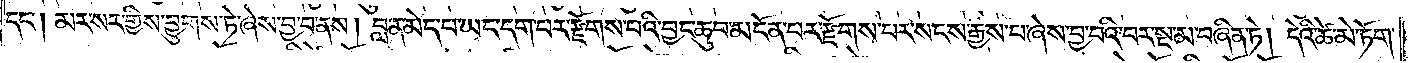དང༌། མར་སར་གྱིས་བྱུགས་ཏེ་ཞེས་བྱ་བ་ནས། བླ་ན་མེད་པ་ཡང་དག་པར་རྫོགས་པའི་བྱང་ཆུབ་མངོན་པར་རྫོགས་པར་སངས་རྒྱས་པ་ཞེས་བྱ་བའི་བར་སྔ་མ་བཞིན་ཏེ། དེའི་ཚེ་མེ་ཏོག་
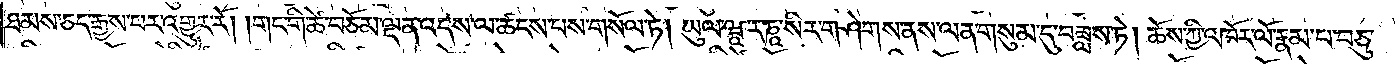ཐམས་ཅད་རྒྱས་པར་འགྱུར་རོ། །གང་གི་ཚེ་བཅོམ་ལྡན་འདས་ལ་ཚངས་པས་གསོལ་ཏེ། ཡུལ་ཝཱ་ར་ཎཱ་སིར་གཤེགས་ནས་ལན་གསུམ་དུ་བཟླས་ཏེ། ཆོས་ཀྱི་འཁོར་ལོ་རྣམ་པ་བཅུ་
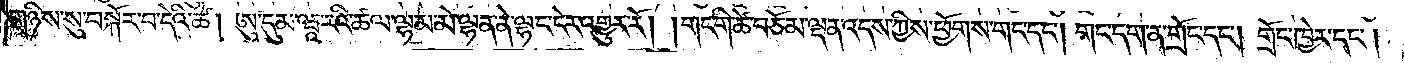གཉིས་སུ་བསྐོར་བ་དེའི་ཚེ། ཨུ་དུམ་ཝཱ་རའི་ཚལ་ལྷམ་མེ་ལྷན་ནེ་ལྷང་ངེར་འགྱུར་རོ། །གང་གི་ཚེ་བཅོམ་ལྡན་འདས་ཀྱིས་ཕྱོགས་གང་དང༌། གང་དག་ན་གྲོང་དང༌། གྲོང་ཁྱེར་དང༌།
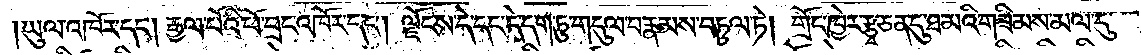ཡུལ་འཁོར་དང༌། རྒྱལ་པོའི་ཕོ་བྲང་འཁོར་དང༌། ལྗོངས་དེ་དང་དེ་དག་ཏུ་གདུལ་བ་རྣམས་བཏུལ་ཏེ། གྲོང་ཁྱེར་རྩྭ་ཅན་དུ་ཐ་མའི་གཟིམས་མལ་དུ་
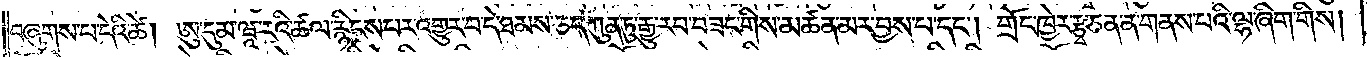བཞུགས་པ་དེའི་ཚེ། ཨུ་དུམ་ཝཱ་རའི་ཚལ་རྙིངས་པར་འགྱུར་བ་དེ་ཐམས་ཅད་ཀུན་ཏུ་རྒྱུ་རབ་བཟང་གིས་མཚན་མར་བྱས་པ་དང༌། གྲོང་ཁྱེར་རྩྭ་ཅན་ན་གནས་པའི་ལྷ་ཞིག་གིས།
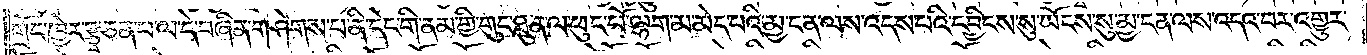གྲོང་ཁྱེར་རྩྭ་ཅན་པ་ལ་དེ་བཞིན་གཤེགས་པ་ནི་དེང་གི་ནམ་གྱི་གུང་ཐུན་ལ་ཕུང་པོ་ལྷག་མ་མེད་པའི་མྱ་ངན་ལས་འདས་པའི་དབྱིངས་སུ་ཡོངས་སུ་མྱ་ངན་ལས་འདའ་བར་འགྱུར་
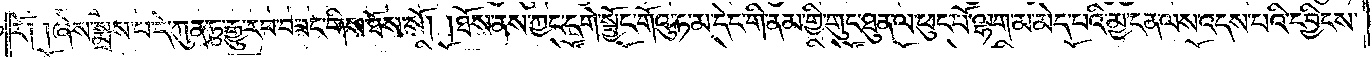རོ། །ཞེས་སྨྲས་པ་དེ་ཀུན་ཏུ་རྒྱུ་རབ་བཟང་གིས་ཐོས་སོ། །ཐོས་ནས་ཀྱང་དགེ་སྦྱོང་གོའུ་ཏ་མ་དེང་གི་ནམ་གྱི་གུང་ཐུན་ལ་ཕུང་པོ་ལྷག་མ་མེད་པའི་མྱ་ངན་ལས་འདས་པའི་དབྱིངས་
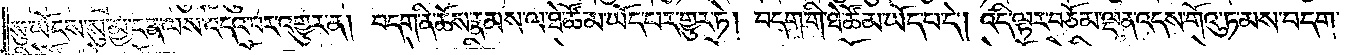སུ་ཡོངས་སུ་མྱ་ངན་ལས་འདའ་བར་འགྱུར་ན། བདག་ནི་ཆོས་རྣམས་ལ་ཐེ་ཚོམ་ཡོད་པར་གྱུར་ཏེ། བདག་གི་ཐེ་ཚོམ་ཡོད་པ་དེ། འདི་ལྟར་བཅོམ་ལྡན་འདས་གོའུ་ཏ་མས་བདག་
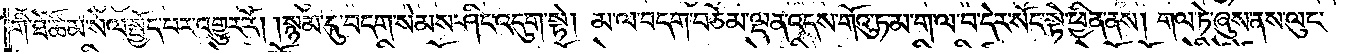གི་ཐེ་ཚོམ་སེལ་སྤྱོད་པར་འགྱུར་རོ། །སྙམ་དུ་བདག་སེམས་ཤིང་འདུག་སྟེ། མ་ལ་བདག་བཅོམ་ལྡན་འདས་གོའུ་ཏ་མ་ག་ལ་བ་དེར་སོང་སྟེ་ཕྱིན་ནས། གལ་ཏེ་ཞུས་ནས་ལུང་
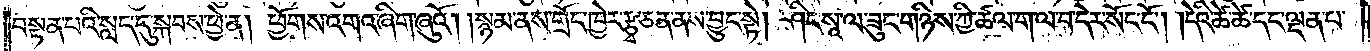བསྟན་པའི་སླད་དུ་སྐབས་ཕྱེ་ན། ཕྱོགས་འགའ་ཞིག་ཞུའོ། །སྙམ་ནས་གྲོང་ཁྱེར་རྩྭ་ཅན་ནས་བྱུང་སྟེ། ཤིང་སཱ་ལ་ཟུང་གཉིས་ཀྱི་ཚལ་ག་ལ་བ་དེར་སོང་ངོ༌། །དེའི་ཚེ་ཚེ་དང་ལྡན་པ་
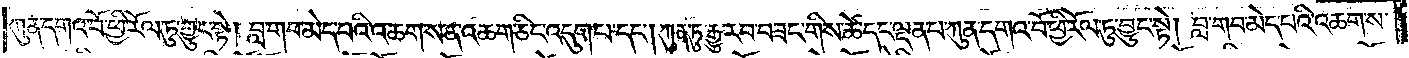ཀུན་དགའ་བོ་ཕྱི་རོལ་ཏུ་བྱུང་སྟེ། བླ་གབ་མེད་པའི་འཆག་ས་ན་འཆག་ཅིང་འདུག་པ་དང༌། ཀུན་ཏུ་རྒྱུ་རབ་བཟང་གིས་ཚེ་དང་ལྡན་པ་ཀུན་དགའ་བོ་ཕྱི་རོལ་ཏུ་བྱུང་སྟེ། བླ་གབ་མེད་པའི་འཆག་ས་
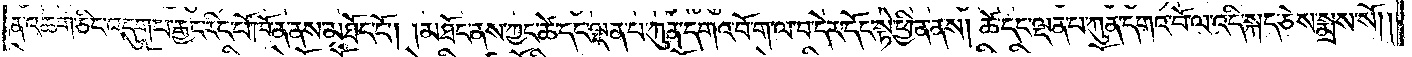ན་འཆག་ཅིང་འདུག་པ་རྒྱང་རིང་པོ་ཁོ་ན་ནས་མཐོང་ངོ༌། །མཐོང་ནས་ཀྱང་ཚེ་དང་ལྡན་པ་ཀུན་དགའ་བོ་ག་ལ་བ་དེར་དོང་སྟེ་ཕྱིན་ནས། ཚེ་དང་ལྡན་པ་ཀུན་དགའ་བོ་ལ་འདི་སྐད་ཅེས་སྨྲས་སོ༎
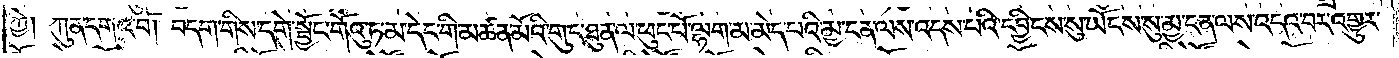ཀྱེ། ཀུན་དགའ་བོ། བདག་གིས་དགེ་སྦྱོང་གོའུ་ཏ་མ་དེང་གི་མཚན་མོའི་གུང་ཐུན་ལ་ཕུང་པོ་ལྷག་མ་མེད་པའི་མྱ་ངན་ལས་འདས་པའི་དབྱིངས་སུ་ཡོངས་སུ་མྱ་ངན་ལས་འདའ་བར་འགྱུར་
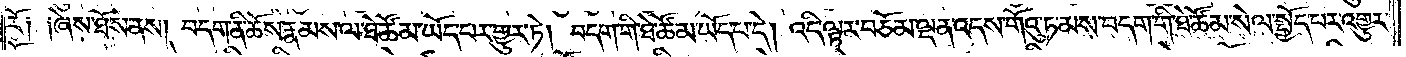རོ༑ ༑ཞེས་ཐོས་ནས། བདག་ནི་ཆོས་རྣམས་ལ་ཐེ་ཚོམ་ཡོད་པར་གྱུར་ཏེ། བདག་གི་ཐེ་ཚོམ་ཡོད་པ་དེ། འདི་ལྟར་བཅོམ་ལྡན་འདས་གོའུ་ཏ་མས་བདག་གི་ཐེ་ཚོམ་སེལ་སྤྱོད་པར་འགྱུར་
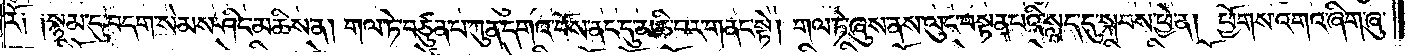རོ༑ ༑སྙམ་དུ་བདག་སེམས་ཤིང་མཆིས་ན། གལ་ཏེ་བཙུན་པ་ཀུན་དགའ་བོས་ནང་དུ་མཆི་བར་གནང་སྟེ། གལ་ཏེ་ཞུས་ནས་ལུང་བསྟན་པའི་སླད་དུ་སྐབས་ཕྱེ་ན། ཕྱོགས་འགའ་ཞིག་ཞུ་
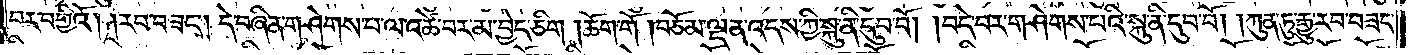བར་བགྱིའོ། །རབ་བཟང༌། དེ་བཞིན་གཤེགས་པ་ལ་འཚེ་བར་མ་བྱེད་ཅིག །ཆོག་གོ །བཅོམ་ལྡན་འདས་ཀྱི་སྐུ་ནི་དུབ་བོ། །བདེ་བར་གཤེགས་པའི་སྐུ་ནི་དུབ་བོ། །ཀུན་ཏུ་རྒྱུ་རབ་བཟང་
